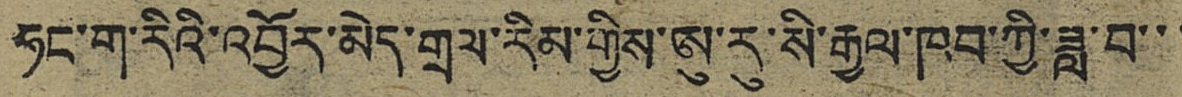ཧང་ག་རིའི་འབྱོར་མེད་གྲལ་རིམ་གྱིས་ཨུ་རུ་སི་རྒྱལ་ཁབ་ཀྱི་ཟླ་བ་་་
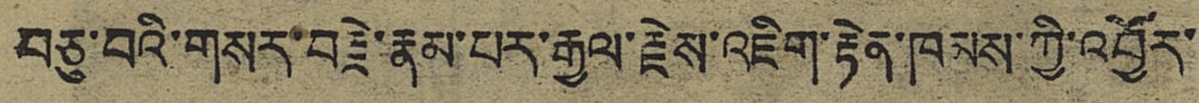བཅུ་བའི་གསར་བརྗེ་རྣམ་པར་རྒྱལ་རྗེས་འཇིག་རྟེན་ཁམས་ཀྱི་འབྱོར་
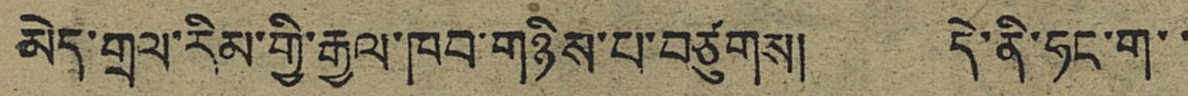མེད་གྲལ་རིམ་གྱི་རྒྱལ་ཁབ་གཉིས་པ་བཙུགས། དེ་ནི་ཧང་ག་་
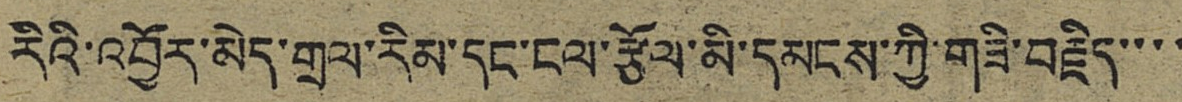རིའི་འབྱོར་མེད་གྲལ་རིམ་དང་ངལ་རྩོལ་མི་དམངས་ཀྱི་གཟི་བརྗིད་་་་
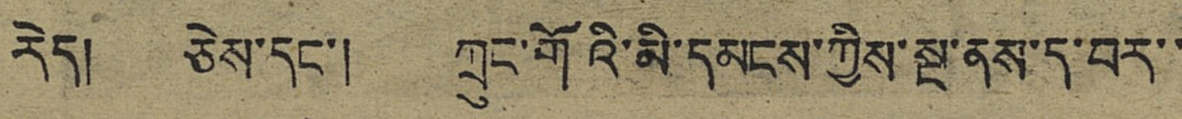རེད། ཅེས་དང་། ཀྲུང་གོའི་མི་དམངས་ཀྱིས་སྔ་ནས་ད་བར་་
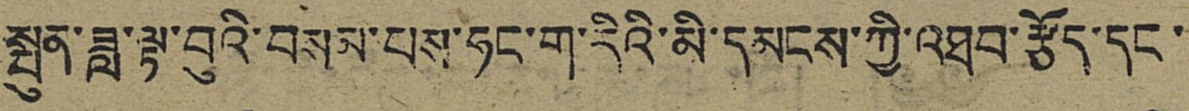སྤུན་ཟླ་ལྟ་བུའི་བསམ་པས་ཧང་ག་རིའི་མི་དམངས་ཀྱི་འཐབ་རྩོད་དང་
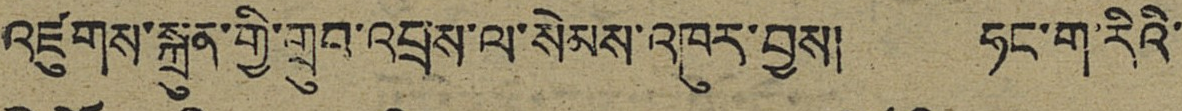འཛུགས་སྐྲུན་གྱི་གྲུབ་འབྲས་ལ་སེམས་འཁུར་བྱས། ཧང་ག་རིའི་
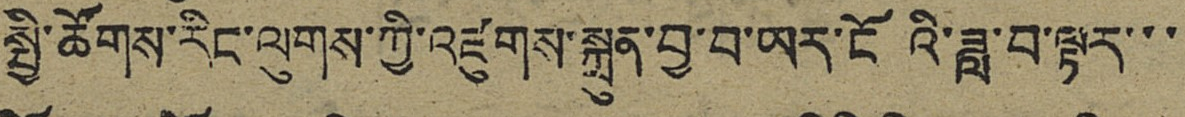སྤྱི་ཚོགས་རིང་ལུགས་ཀྱི་འཛུགས་སྐྲུན་བྱ་བ་ཡར་ངོའི་ཟླ་བ་ལྟར་་་
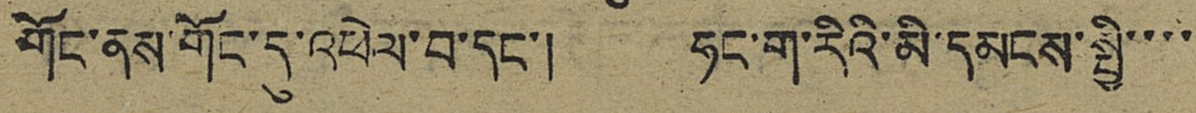གོང་ནས་གོང་དུ་འཕེལ་བ་དང་། ཧང་ག་རིའི་མི་དམངས་སྤྱི་་་་
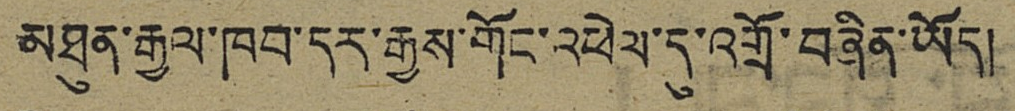མཐུན་རྒྱལ་ཁབ་དར་རྒྱས་གོང་འཕེལ་དུ་འགྲོ་བཞིན་ཡོད།
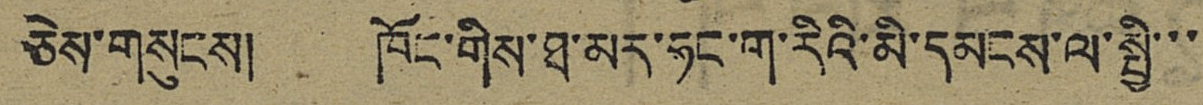ཅེས་གསུངས། ཁོང་གིས་ཐ་མར་ཧང་ག་རིའི་མི་དམངས་ལ་སྤྱི་་་
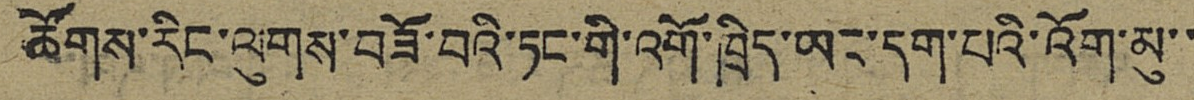ཚོགས་རིང་ལུགས་བཟོ་བའི་ཏང་གི་འགོ་ཁྲིད་ཡང་དག་པའི་འོག་མུ་་
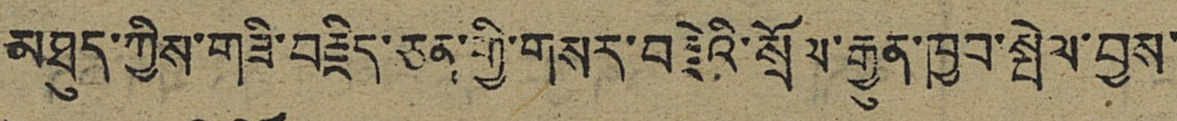མཐུད་ཀྱིས་གཟི་བརྗིད་ཅན་གྱི་གསར་བརྗེའི་སྲོལ་རྒྱུན་ཁྱབ་སྤེལ་བྱས་
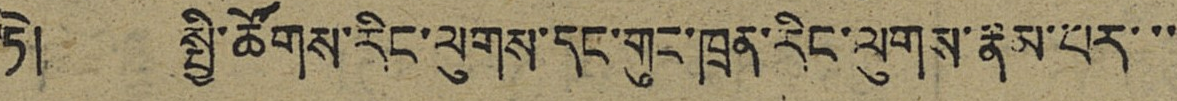ཏེ། སྤྱི་ཚོགས་རིང་ལུགས་དང་གུང་ཁྲན་རིང་ལུགས་རྣམ་པར་་
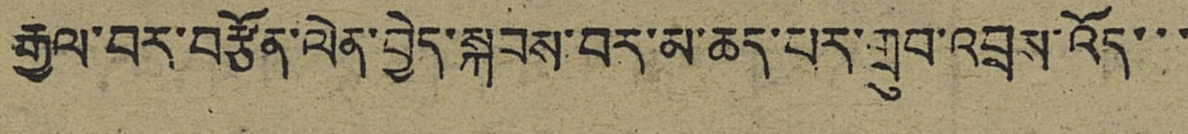རྒྱལ་བར་བརྩོན་ལེན་བྱད་སྐབས་བར་མ་ཆད་པར་གྲུབ་འབྲས་འོད་་་
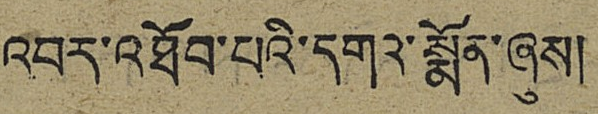འབར་འཐོབ་པའི་དགའ་སྨོན་ཞུས།
